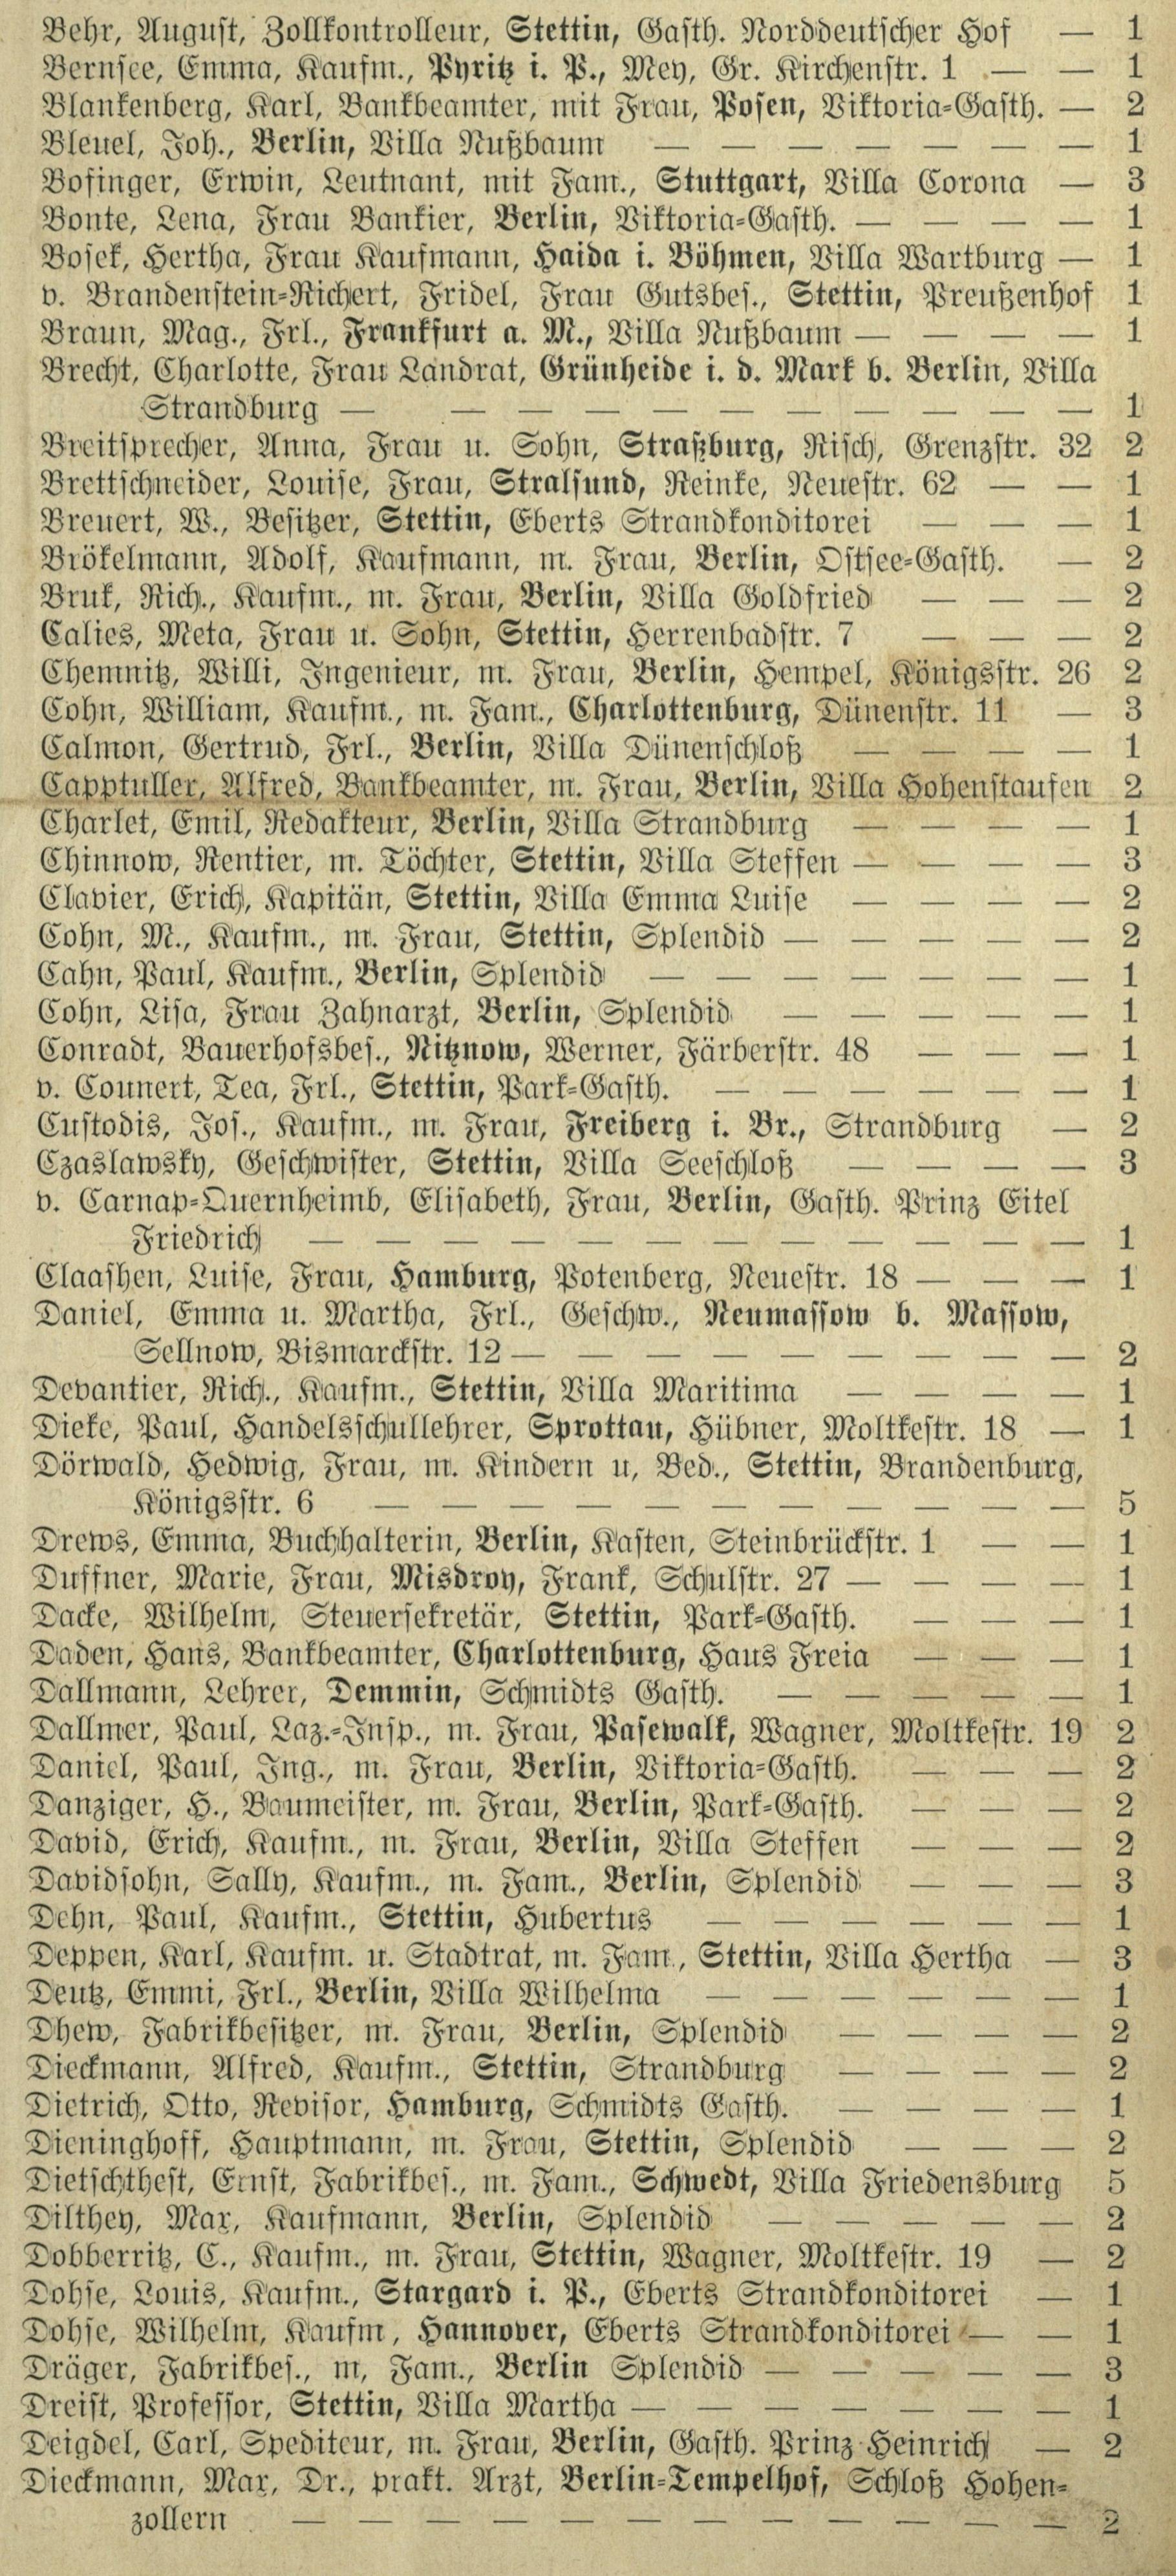Behr, August, Zollkontrolleur, Stettin, Gasth. Norddeutsher Hof | 1
Bernsee, Emma, Kaufm., Pyritz i. P., Mey, Gr. Kirchenstr. 1 | 1
Blankenberg, Karl, Bankbeamter, mit Frau, Posen, Viktoria=Gasth. | 2
Bleuel, Joh., Berlin, Villa Nußbaum | 1
Bofinger, Erwin, Leutnant, mit Fam., Stuttgart, Villa Corona | 3
Bonte, Lena, Frau Bankier, Berlin, Viktoria=Gasth. | 1
Bosek, Hertha, Frau Kaufmann, Haida i. Böhmen, Villa Wartburg | 1
v. Brandenstein=Richert, Fridel, Frau Gutsbes., Stettin, Preußenhof | 1
Braun, Mag., Frl., Frankfurt a. M., Villa Nußbaum | 1
Brecht, Charlotte, Frau Landrat, Grünheide i. d. Mark b. Berlin, Villa
Strandburg | 1
Breitsprecher, Anna, Frau u. Sohn, Straßburg, Risch, Grenzstr. 32 | 2
Brettschneider, Louise, Frau, Stralsund, Reinke, Neuestr. 62 | 1
Breuert, W., Besitzer, Stettin, Eberts Strandkonditorei | 1
Brökelmann, Adolf, Kaufmann, m. Frau, Berlin, Ostsee=Gasth. | 2
Bruk, Rich., Kaufm., m. Frau, Berlin, Villa Goldfried | 2
Calies, Meta, Frau u. Sohn, Stettin, Herrenbadstr. 7 | 2
Chemnitz, Willi, Ingenieur, m. Frau, Berlin, Hempel, Königsstr. 26 | 2
Cohn, William, Kaufm., m. Fam., Charlottenburg, Dünenstr. 11 | 3
Calmon, Gertrud, Frl., Berlin, Villa Dünenschloß | 1
Capptuller, Alfred, Bankbeamter, m. Frau, Berlin, Villa Hohenstraufen | 2
Charlet, Emil, Redakteur, Berlin, Villa Strandburg | 1
Chinnow, Rentier, m. Töchter, Stettin, Villa Steffen | 3
Clavier, Erich, Kapitän, Stettin, Villa Emma Luise | 2
Cohn, M., Kaufm., m. Frau, Stettin, Splendid | 2
Cahn, Paul, Kaufm., Berlin, Splendid | 1
Cohn, Lisa, Frau Zahnarzt, Berlin, Splendid | 1
Conradt, Bauerhofsbes., Nitznow, Werner, Färberstr. 48 | 1
v. Counert, Tea, Frl., Stettin, Park=Gasth. | 1
Custodis, Jos., Kaufm., m. Frau, Freiberg i. Br., Strandburg | 2
Czaslawsky, Geschwister, Stettin, Villa Seeschloß | 3
v. Carnap=Quernheimb, Elisabeth, Frau, Berlin, Gasth. Prinz Eitel
Friedrich | 1
Claashen, Luise, Frau, Hamburg, Potenberg, Neuestr. 18 | 1
Daniel, Emma u. Martha, Frl., Geschw., Neumassow b. Massow,
Sellnow, Bismarckstr. 12 | 2
Devantier, Rich., Kaufm., Stettin, Villa Maritima | 1
Dieke, Paul, Handelsschullehrer, Sprottau, Hübner, Moltkestr. 18 | 1
Dörwald, Hedwig, Frau, m. Kindern u, Bed., Stettin, Brandenburg,
Königsstr. 6 | 5
Drews, Emma, Buchhalterin, Berlin, Kasten, Steinbrückstr. 1 | 1
Duffner, Marie, Frau, Misdroy, Frank, Schulstr. 27 | 1
Dacke, Wilhelm, Steuersekretär, Stettin, Park=Gasth. | 1
Daden, Hans, Bankbeamter, Charlottenburg, Haus Freia | 1
Dallmann, Lehrer, Demmin, Schmidts Gasth. | 1
Dallmer, Paul, Laz.=Insp., m. Frau, Pasewalk, Wagner, Moltkestr. 19 | 2
Daniel, Paul, Ing., m. Frau, Berlin, Viktoria=Gasth. | 2
Danziger, H., Baumeister, m. Frau, Berlin, Park=Gasth. | 2
David, Erich, Kaufm., m. Frau, Berlin, Villa Steffen | 2
Davidsohn, Sally, Kaufm., m. Fam., Berlin, Splendid | 3
Dehn, Paul, Kaufm., Stettin, Hubertus | 1
Deppen, Karl, Kaufm. u. Stadtrat, m. Fam., Stettin, Villa Hertha | 3
Deutz, Emmi, Frl., Berlin, Villa Wilhelma | 1
Dhew, Fabrikbesitzer, m. Frau, Berlin, Splendid | 2
Dieckmann, Alfred, Kaufm., Stettin, Strandburg | 2
Dietrich, Otto, Revisor, Hamburg, Schmidts Gasth. | 1
Dieninghoff, Hauptmann, m. Frau, Stettin, Splendid | 2
Dietschthest, Ernst, Fabrikbes., m. Fam., Schwedt, Villa Friedensburg | 5
Dilthey, Max, Kaufmann, Berlin, Splendid | 2
Dobberritz, C., Kaufm., m. Frau, Stettin, Wagner, Moltkestr. 19 | 2
Dohse, Louis, Kaufm., Stargard i. P., Eberts Strandkonditorei | 1
Dohse, Wilhelm, Kaufm , Hannover, Eberts Strandkonditorei | 1
Dräger, Fabrikbes., m, Fam., Berlin Splendid | 3
Dreist, Professor, Stettin, Villa Martha | 1
Deigdel, Carl, Spediteur, m. Frau, Berlin, Gasth. Prinz Heinrich | 2
Dieckmann, Max, Dr., prakt. Arzt, Berlin=Tempelhof, Schloß Hohen=
zollern | 2
